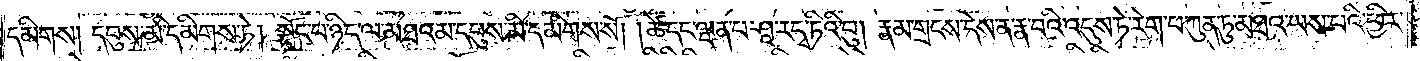དམིགས། དབུས་མི་དམིགས་ཏེ། སྟོང་པ་ཉིད་ལ་མཐའམ་དབུས་མི་དམིགས་སོ། །ཚེ་དང་ལྡན་པ་ཤཱ་ར་དྭ་ཏིའི་བུ། རྣམ་གྲངས་དེས་ན་རྣ་བའི་འདུས་ཏེ་རེག་པ་ཀུན་ཏུ་མཐའ་ཡས་པའི་ཕྱིར་
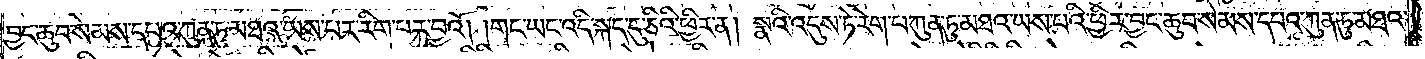བྱང་ཆུབ་སེམས་དཔའ་ཀུན་ཏུ་མཐའ་ཡས་པར་རིག་པར་བྱའོ། །གང་ཡང་འདི་སྐད་དུ་ཅིའི་ཕྱིར་ན། སྣའི་འདུས་ཏེ་རེག་པ་ཀུན་ཏུ་མཐའ་ཡས་པའི་ཕྱིར་བྱང་ཆུབ་སེམས་དཔའ་ཀུན་ཏུ་མཐའ་
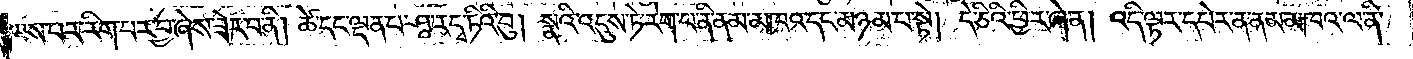ཡས་པར་རིག་པར་བྱ་ཞེས་ཟེར་བ་ནི། ཚེ་དང་ལྡན་པ་ཤཱ་ར་དྭ་ཏིའི་བུ། སྣའི་འདུས་ཏེ་རེག་པ་ནི་ནམ་མཁའ་དང་མཉམ་པ་སྟེ། དེ་ཅིའི་ཕྱིར་ཞེ་ན། འདི་ལྟར་དཔེར་ན་ནམ་མཁའ་ལ་ནི་
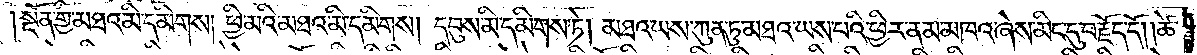སྔོན་གྱི་མཐའ་མི་དམིགས། ཕྱི་མའི་མཐའ་མི་དམིགས། དབུས་མི་དམིགས་ཏེ། མཐའ་ཡས་ཀུན་ཏུ་མཐའ་ཡས་པའི་ཕྱིར་ནམ་མཁའ་ཞེས་མིང་དུ་བརྗོད་དོ། །ཚེ་
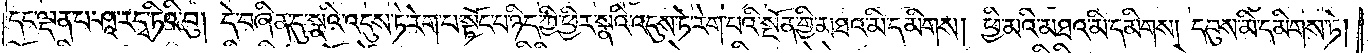དང་ལྡན་པ་ཤཱ་ར་དྭ་ཏིའི་བུ། དེ་བཞིན་དུ་སྣའི་འདུས་ཏེ་རེག་པ་སྟོང་པ་ཉིད་ཀྱི་ཕྱིར་སྣའི་འདུས་ཏེ་རེག་པའི་སྔོན་གྱི་མཐའ་མི་དམིགས། ཕྱི་མའི་མཐའ་མི་དམིགས། དབུས་མི་དམིགས་ཏེ།
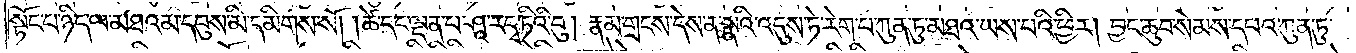སྟོང་པ་ཉིད་ལ་མཐའམ་དབུས་མི་དམིགས་སོ། །ཚེ་དང་ལྡན་པ་ཤཱ་ར་དྭ་ཏིའི་བུ། རྣམ་གྲངས་དེས་ན་སྣའི་འདུས་ཏེ་རེག་པ་ཀུན་ཏུ་མཐའ་ཡས་པའི་ཕྱིར། བྱང་ཆུབ་སེམས་དཔའ་ཀུན་ཏུ་
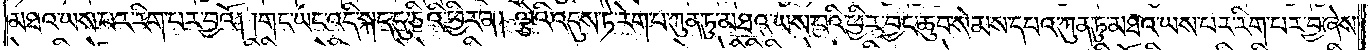མཐའ་ཡས་པར་རིག་པར་བྱའོ། །གང་ཡང་འདི་སྐད་དུ་ཅིའི་ཕྱིར་ན། ལྕེའི་འདུས་ཏེ་རེག་པ་ཀུན་ཏུ་མཐའ་ཡས་པའི་ཕྱིར་བྱང་ཆུབ་སེམས་དཔའ་ཀུན་ཏུ་མཐའ་ཡས་པར་རིག་པར་བྱ་ཞེས་
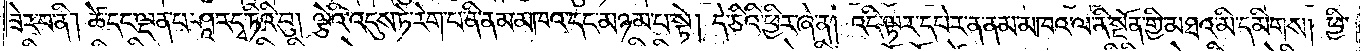ཟེར་བ་ནི། ཚེ་དང་ལྡན་པ་ཤཱ་ར་དྭ་ཏིའི་བུ། ལྕེའི་འདུས་ཏེ་རེག་པ་ནི་ནམ་མཁའ་དང་མཉམ་པ་སྟེ། དེ་ཅིའི་ཕྱིར་ཞེ་ན། འདི་ལྟར་དཔེར་ན་ནམ་མཁའ་ལ་ནི་སྔོན་གྱི་མཐའ་མི་དམིགས། ཕྱི་
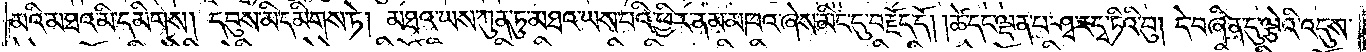མའི་མཐའ་མི་དམིགས། དབུས་མི་དམིགས་ཏེ། མཐའ་ཡས་ཀུན་ཏུ་མཐའ་ཡས་པའི་ཕྱིར་ནམ་མཁའ་ཞེས་མིང་དུ་བརྗོད་དོ། །ཚེ་དང་ལྡན་པ་ཤཱ་ར་དྭ་ཏིའི་བུ། དེ་བཞིན་དུ་ལྕེའི་
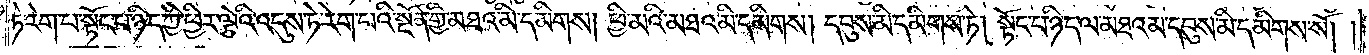འདུས་ཏེ་རེག་པ་སྟོང་པ་ཉིད་ཀྱི་ཕྱིར་ལྕེའི་འདུས་ཏེ་རེག་པའི་སྔོན་གྱི་མཐའ་མི་དམིགས། ཕྱི་མའི་མཐའ་མི་དམིགས། དབུས་མི་དམིགས་ཏེ། སྟོང་པ་ཉིད་ལ་མཐའམ་དབུས་མི་དམིགས་སོ། །
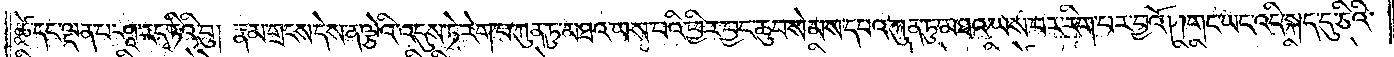ཚེ་དང་ལྡན་པ་ཤཱ་ར་དྭ་ཏིའི་བུ། རྣམ་གྲངས་དེས་ན་ལྕེའི་འདུས་ཏེ་རེག་པ་ཀུན་ཏུ་མཐའ་ཡས་པའི་ཕྱིར་བྱང་ཆུབ་སེམས་དཔའ་ཀུན་ཏུ་མཐའ་ཡས་པར་རིག་པར་བྱའོ། །གང་ཡང་འདི་སྐད་དུ་ཅིའི་
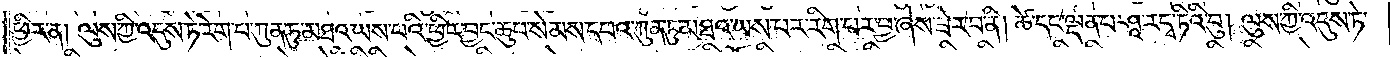ཕྱིར་ན། ལུས་ཀྱི་འདུས་ཏེ་རེག་པ་ཀུན་ཏུ་མཐའ་ཡས་པའི་ཕྱིར་བྱང་ཆུབ་སེམས་དཔའ་ཀུན་ཏུ་མཐའ་ཡས་པར་རིག་པར་བྱ་ཞེས་ཟེར་བ་ནི། ཚེ་དང་ལྡན་པ་ཤཱ་ར་དྭ་ཏིའི་བུ། ལུས་ཀྱི་འདུས་ཏེ་
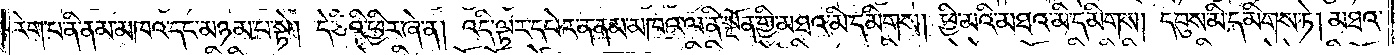རེག་པ་ནི་ནམ་མཁའ་དང་མཉམ་པ་སྟེ། དེ་ཅིའི་ཕྱིར་ཞེ་ན། འདི་ལྟར་དཔེར་ན་ནམ་མཁའ་ལ་ནི་སྔོན་གྱི་མཐའ་མི་དམིགས། ཕྱི་མའི་མཐའ་མི་དམིགས། དབུས་མི་དམིགས་ཏེ། མཐའ་
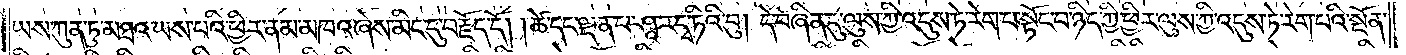ཡས་ཀུན་ཏུ་མཐའ་ཡས་པའི་ཕྱིར་ནམ་མཁའ་ཞེས་མིང་དུ་བརྗོད་དོ། །ཚེ་དང་ལྡན་པ་ཤཱ་ར་དྭ་ཏིའི་བུ། དེ་བཞིན་དུ་ལུས་ཀྱི་འདུས་ཏེ་རེག་པ་སྟོང་པ་ཉིད་ཀྱི་ཕྱིར་ལུས་ཀྱི་འདུས་ཏེ་རེག་པའི་སྔོན་
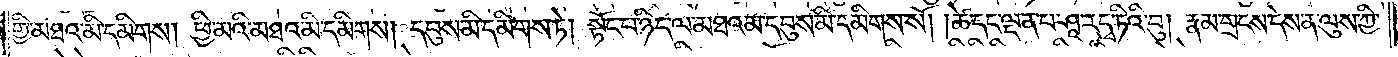གྱི་མཐའ་མི་དམིགས། ཕྱི་མའི་མཐའ་མི་དམིགས། དབུས་མི་དམིགས་ཏེ། སྟོང་པ་ཉིད་ལ་མཐའམ་དབུས་མི་དམིགས་སོ། །ཚེ་དང་ལྡན་པ་ཤཱ་ར་དྭ་ཏིའི་བུ། རྣམ་གྲངས་དེས་ན་ལུས་ཀྱི་
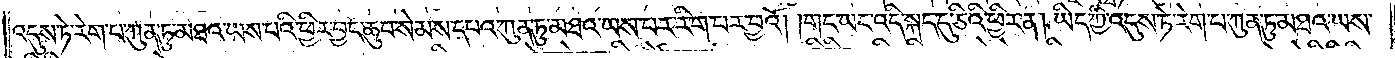འདུས་ཏེ་རེག་པ་ཀུན་ཏུ་མཐའ་ཡས་པའི་ཕྱིར་བྱང་ཆུབ་སེམས་དཔའ་ཀུན་ཏུ་མཐའ་ཡས་པར་རིག་པར་བྱའོ། །གང་ཡང་འདི་སྐད་དུ་ཅིའི་ཕྱིར་ན། ཡིད་ཀྱི་འདུས་ཏེ་རེག་པ་ཀུན་ཏུ་མཐའ་ཡས་
